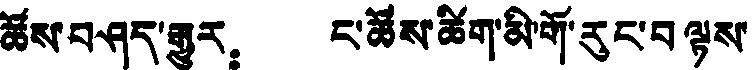ཚོས་བཤད་རྒྱུར： ང་ཚོས་ཚིག་མི་གོ་རུང་བལྟས་
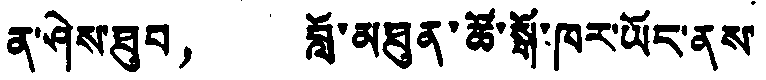ན་ཤེས་ཐུབ， བློ་མཐུན་ཚོ་སྒོ་ཁར་ཡོང་ནས་
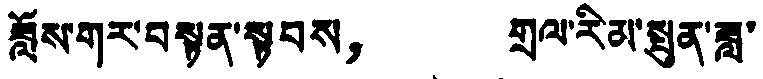ཟློས་གར་བསྟན་སྟབས， གྲལ་རིམ་སྤུན་ཟླ་
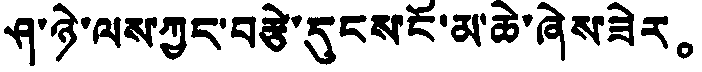ཤ་ཉེ་ལས་ཀྱང་བརྩེ་དུངས་ངོ་མ་ཆེ་ཞེས་ཟེར。
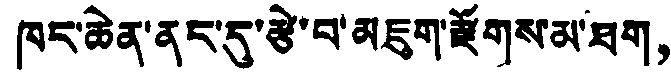ཁང་ཆེན་ནང་དུ་རྩེ་བ་མཇུག་རྫོགས་མ་ཐག，
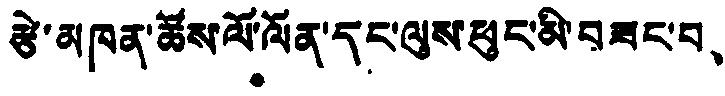རྩེ་མཁན་ཚོས་ལོ་ལོན་དང་ལུས་ཕུང་མི་བཟང་བ、
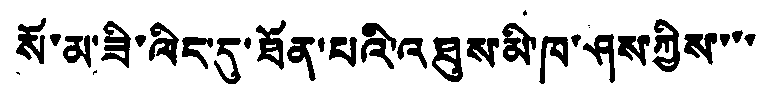སོ་མ་ཟི་ལིད་དུ་ཐོན་པའི་འཐུས་མི་ཁ་ཤས་ཀྱིས་་་་
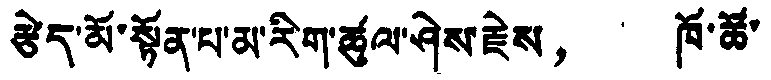རྩེད་མོ་སྟོན་པ་མ་རིག་ཚུལ་ཤེས་རྗེས， ཁོ་ཚོ་
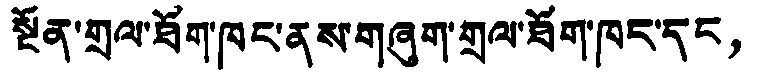སྔོན་གྲལ་ཐོག་ཁང་ནས་གཞུག་གྲལ་ཐོག་ཁང་དང，
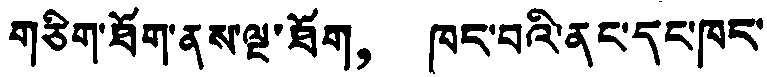གཅིག་ཐོག་ནས་ལྔ་ཐོག， ཁང་བའི་ནང་དང་ཁང་
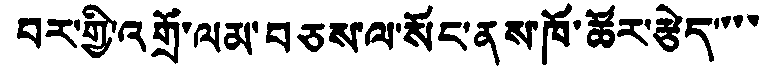བར་གྱི་འགྲོ་ལམ་བཅས་ལ་སོང་ནས་ཁོ་ཚོར་རྩེད་་་་
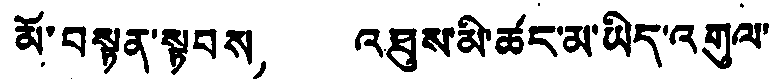མོ་བསྟན་སྟབས， འཐུས་མི་ཚང་མ་ཡིད་འགུལ་
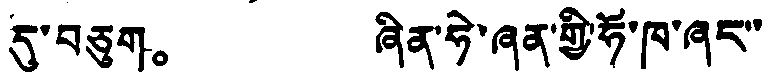དུ་བཅུག。 ཞིན་ཧེ་ཞན་གྱི་ཧོ་ཁ་ཞང་་
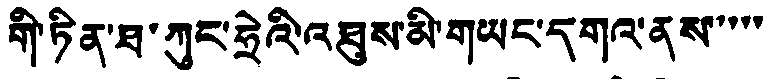གི་ཏིན་ཐ་ཀུང་ཧྲེའི་འཐུས་མི་གཡང་དགའ་ནས་་་་་
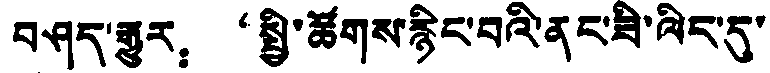བཤད་རྒྱུར：“སྤྱི་ཚོགས་རྙིང་བའི་ནང་ཟི་ལིང་དུ་
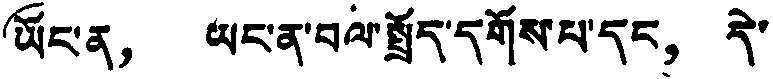ཡོང་ན， ཡང་ན་བལ་སྤྲོད་དགོས་པ་དང， དེ་
